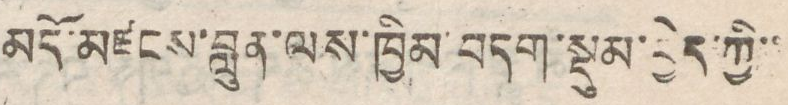མདོ་མཛངས་བླུན་ལས་ཁྱིམ་བདག་སྡུམ་བྱེད་ཀྱི་་
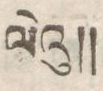ལེའུ།།
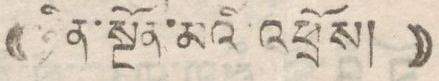(( ཉིན་སྔོན་མའི་འཕྲོས། ))
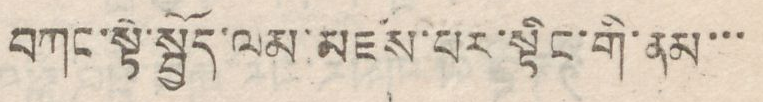བཀང་སྟེ་སྤྱོད་ལམ་མཛས་པར་སྟིང་གི་ནམ་་་
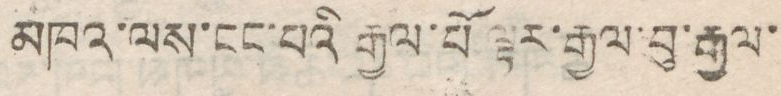མཁའ་ལས་ངང་པའི་རྒྱལ་པོ་ལྟར་རྒྱལ་བུ་རྒྱལ་
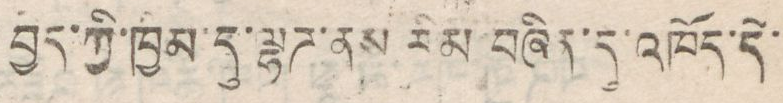བྱད་ཀྱི་ཁྱིམ་དུ་ལྷཌ་ནས རིམ་བཞིན་དུ་འཁོད་དེ་
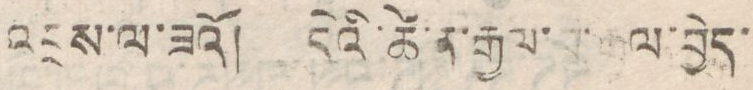འབྲས་ལ་ཟའོ། དེའི་ཚེ་ན་རྒྱལ་བ་རྒྱལ་བྱེད་
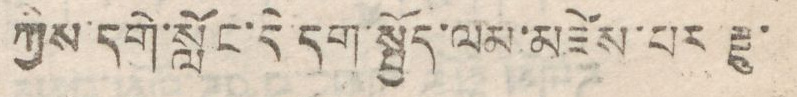ཀྱིས་དགེ་སློང་དེ་དག་སྤྱོད་ལམ་མཛེས་པར རྫུ་
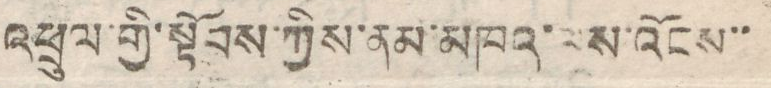འཕྲུལ་གྱི་སྟོབས་ཀྱིས་ནམ་མཁའ་ལས་འོངས་་
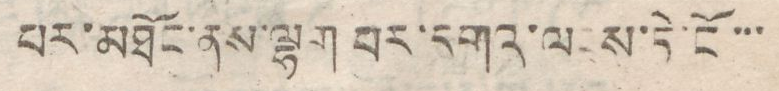པར་མཐོང་ནས་ལྷག པར་དགའ་ལངས་ཏེ་ངོ་་་
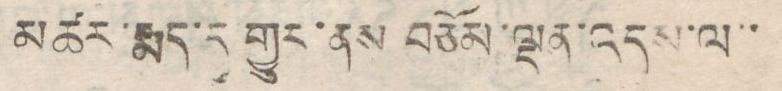མཚར་རྨད་དུ གྱུར་ནས་བཅོམ་ལྡན་འདས་ལ་་
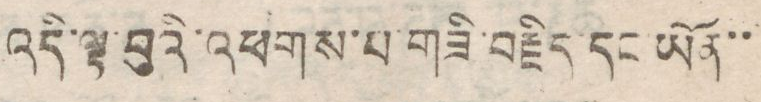འདི་ལྟ་བུའི་འཕགས་པ་གཟི་བརྗོད་དང་ཡོན་་
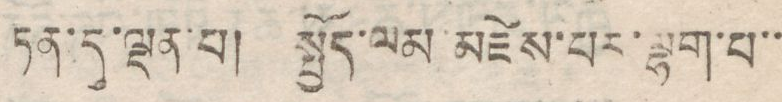ཏན་དུ་ལྡན་པ། སྤྱོད་ལམ་མཛེས་པར་ལྷག་པ་་
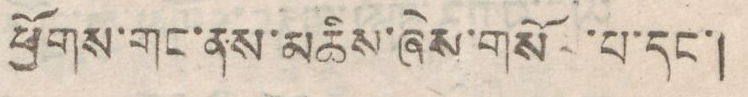ཕྱོགས་གང་ནས་མཆིས་ཞེས་གསོལ་པ་དང་།
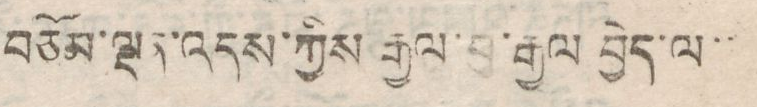བཅོམ་ལྡན་འདས་ཀྱིས རྒྱལ་བུ་རྒྱལ བྱེད་ལ་་
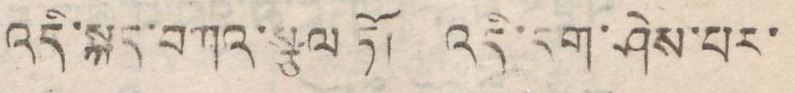འདི་སྐད་བཀའ་སྩལ་ཏོ། འདི་དག་ཤེས་པར་
